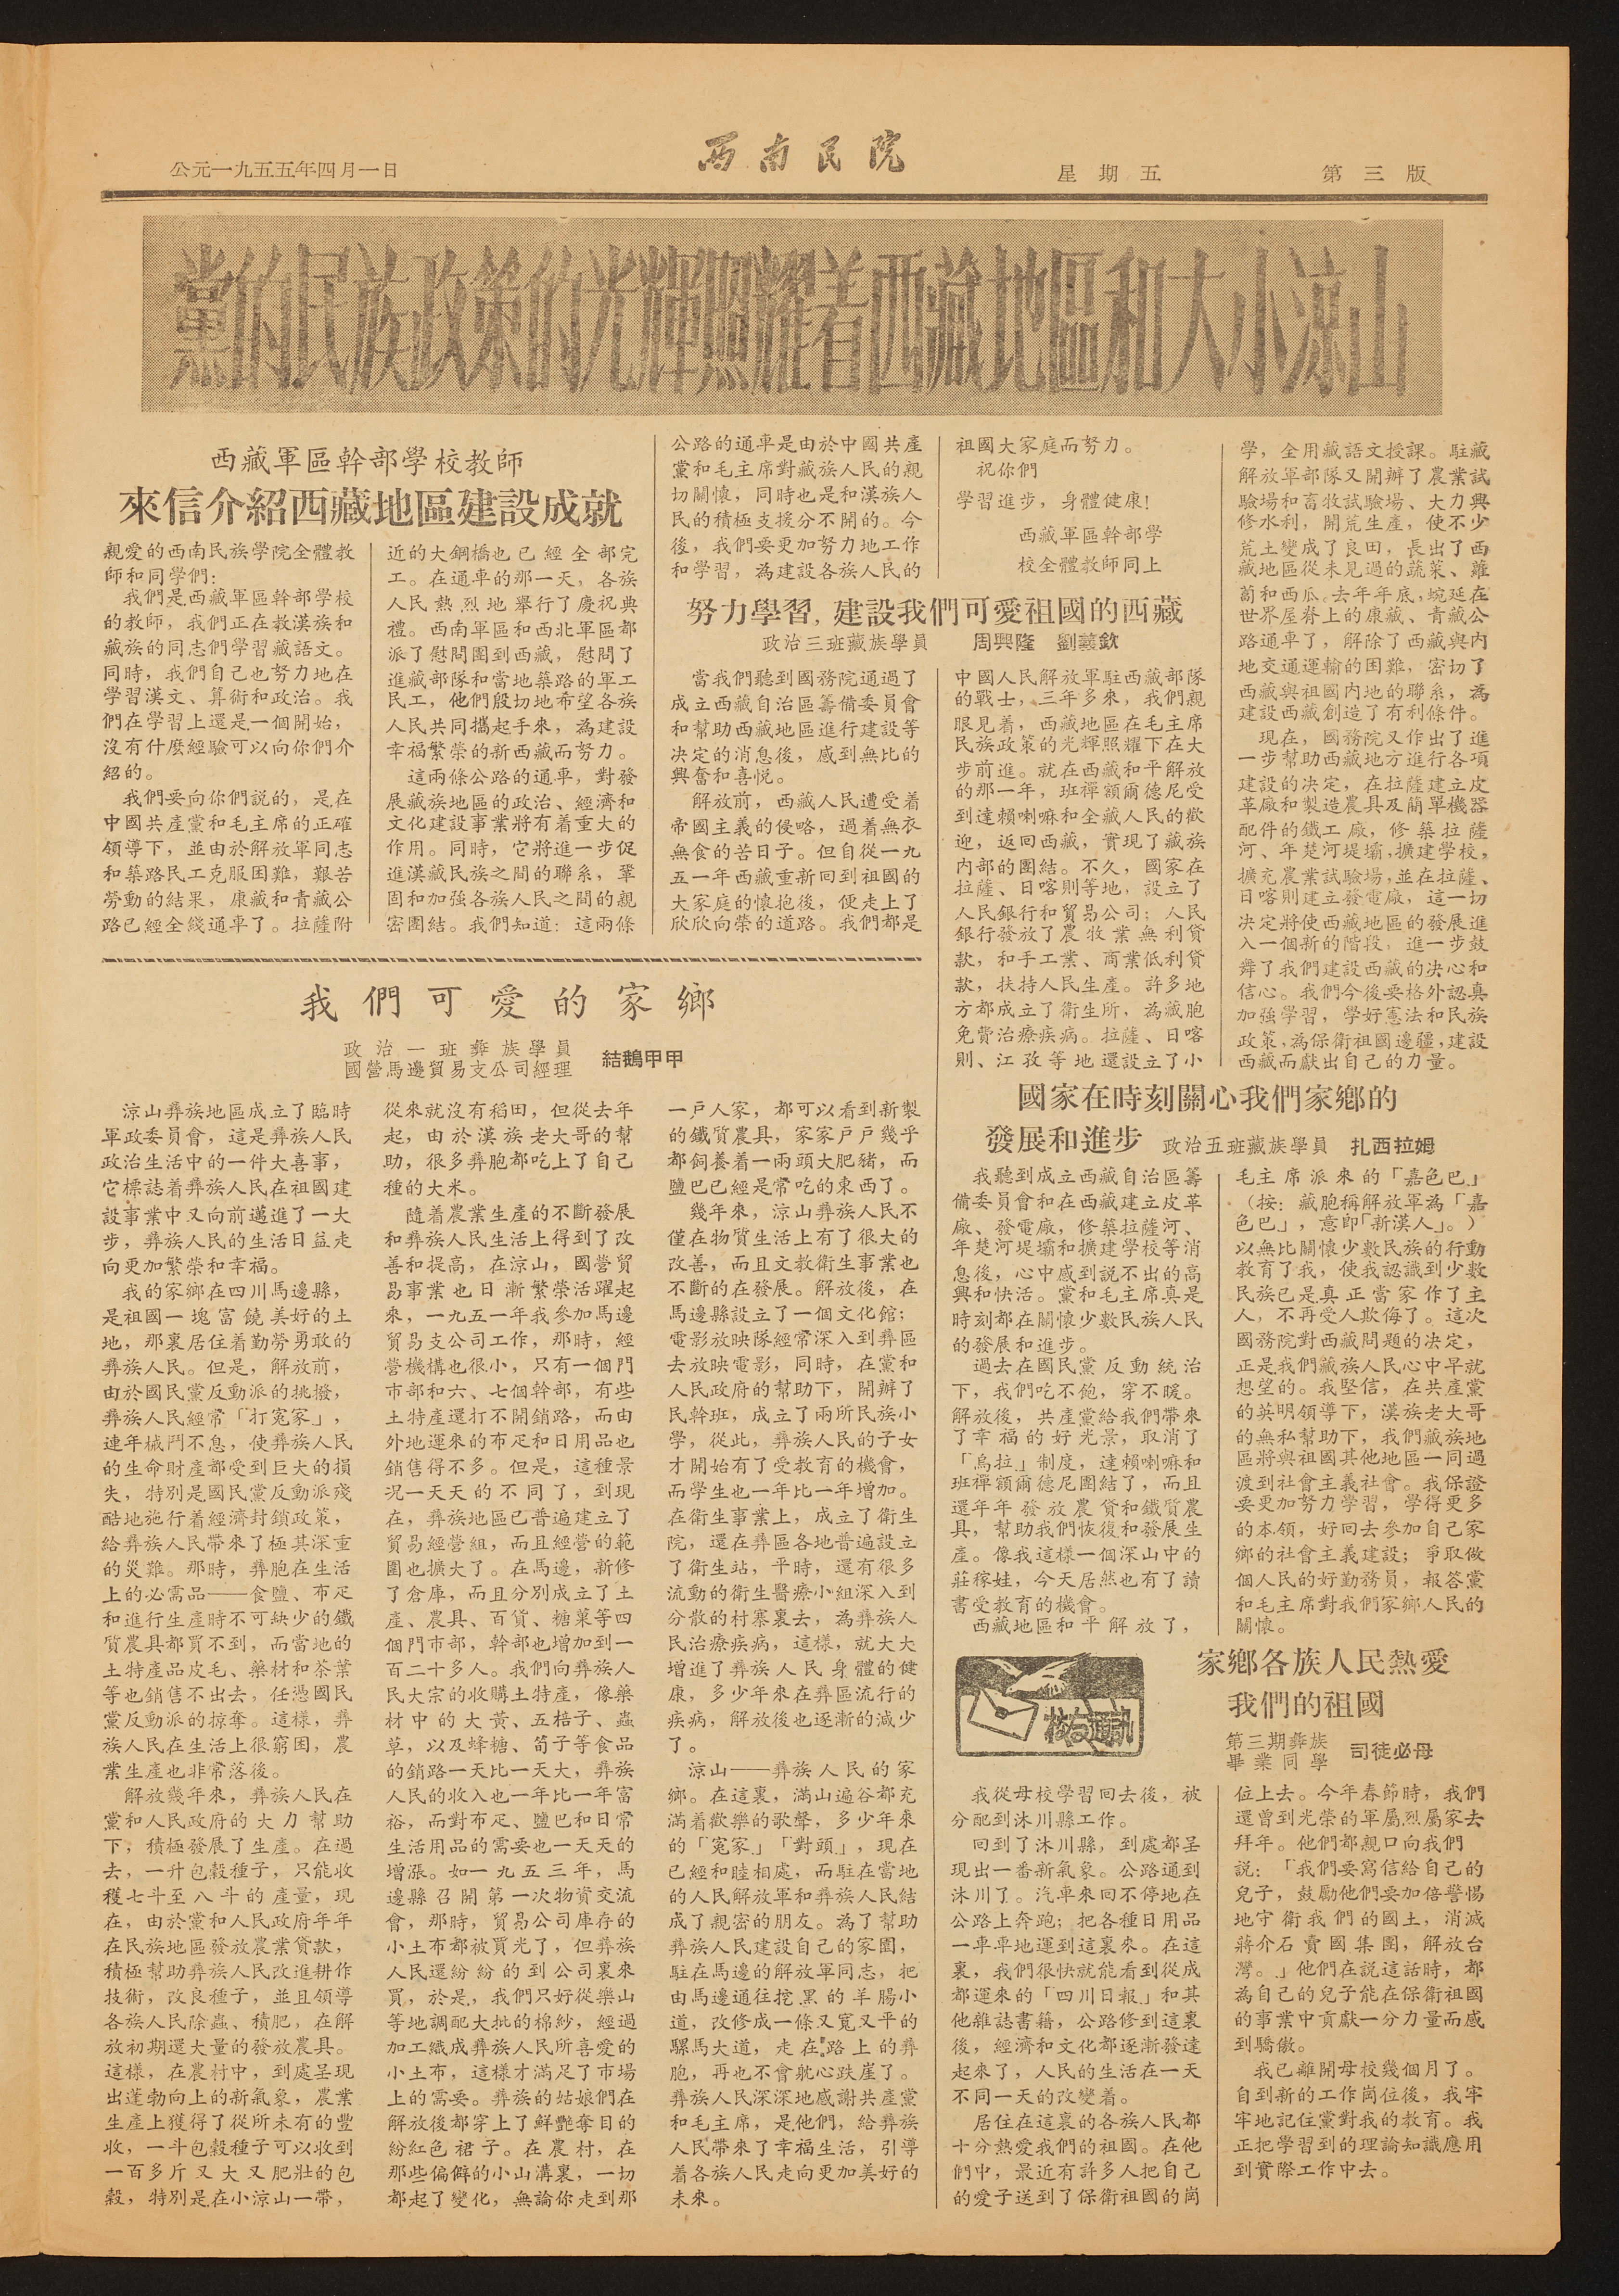公元一九五五年四月一日 西南民院 星期五 第三版
黨的民族政策的光輝照耀着西藏地區和大小涼山
西藏軍區幹部學校教師
來信介紹西藏地區建設成就
親愛的西南民族學院全體教
師和同學們：
我們是西藏軍區幹部學校
的教師，我們正在教漢族和
藏族的同志們學習藏語文。
同時，我們自己也努力地在
學習漢文、算術和政治。我
們在學習上還是一個開始，
沒有什麼經驗可以向你們介
紹的。
我們要向你們說的，是在
中國共產黨和毛主席的正確
領導下，並由於解放軍同志
和築路民工克服困難，艱苦
勞動的結果，康藏和青藏公
路已經全綫通車了。拉薩附
近的大鋼橋也已經全部完
工。在通車的那一天，各族
人民熱烈地舉行了慶祝典
禮。西南軍區和西北軍區都
派了慰問團到西藏，慰問了
進藏部隊和當地築路的軍工
民工，他們殷切地希望各族
人民共同攜起手來，為建設
幸福繁榮的新西藏而努力。
這兩條功德通車，對發
展藏族地區的政治、經濟和
文化建設事業將有着重大的
作用。同時，它將進一步促
進漢藏民族之間的聯系，鞏
固和加強各族人民之間的親
密團結。我們知道：這兩條
公路段通車是由於中國共產
黨和毛主席對藏族人民的親
切關懷，同時也是和漢族人
民的積極支援分不開的。今
後，我們要更加努力地工作
和學習，為建設各族人民的
祖國大家庭而努力。
祝你們
學習進步，身體健康！
西藏軍區幹部學
校全體教師同上
努力學習，建設我們可愛祖國的西藏
政治三班藏族學員 周興隆 劉義欽
當我們聽到國務院通過了
成立西藏自治區籌備委員會
和幫助西藏地區進行建設等
決定 消息後，感到無比的
興奮和喜悅。
解放前，西藏人民遭受着
帝國主義的侵略，過着無衣
無食的苦日子。但自從一九
五一年西藏重新囘到祖國的
大家庭的懷抱後，便走上了
欣欣向榮的道路。我們都是
中國人民解放軍駐西藏部隊
的戰士，三年多來，我們親
眼見着，西藏地區在毛主席
民族政策的光輝照耀下在大
步前進。就在西藏和平解放
的那一年，班禪額爾德尼受
到達賴喇嘛和全藏人民的歡
迎，返囘西藏，實現了藏族
內部的團結。不久，國家在
拉薩、日喀則等地，設立了
人民銀行和貿易公司；人民
銀行發放了農奴業無利貸
款，和手工業、商業低利貸
款，扶持人民生產。許多地
方都成立了衛生所，為藏胞
免費治療疾病。拉薩、日喀
則、江孜等地還設立了小
學，全用藏語文授課。駐藏
解放軍部隊又開辦了農業試
驗場和畜牧試驗場、大力興
修水利，開荒生產，使不少
荒土變成了良田，長出了西
藏地區從未見過的蔬菜、蘿
蔔和西瓜。去年年底，蜿延在
世界屋脊上的康藏、青藏公
路通車了，解除了西藏與內
地交通運輸的困難，密切了
西藏與祖國內地的聯系，為
建設西藏創造了有利條件。
現在，國務院又作出了進
一步幫助西藏地方進行各項
建設的決定，在拉薩建立皮
革廠和製造農具及簡單機器
配件的鐵工廠，修築拉薩
河、年楚河堤壩，擴建學校，
擴充農業試驗場，並在拉薩、
日喀則建立發電廠，這一切
決定將使西藏地區的發展進
入一個新的階段，進一步鼓
舞了我們建設西藏的決心和
信心。我們今後要格外認真
加強學習，學好憲法和民族
政策，為保衛祖國邊疆，建設
西藏而獻出自己的力量。
我 們 可 愛 的 家 鄉
政 治 一 班 彝 族 學 員
國營馬邊貿易支公司經理
結鵝甲甲
涼山彝族地區成立了臨時
軍政委員會，這是彝族人民
政治生活中的一件大喜事，
它標誌着彝族人民在祖國建
設事業上又向前邁進了一大
步，彝族人民的生活日益走
向更加繁榮和幸福。
我的家鄉在四川馬邊縣，
是祖國一塊富饒美好的土
地，那裏居住着勤勞勇敢的
彝族人民。但是，解放前，
由於國民黨反動派的挑撥，
彝族人民經常「打冤家」，
連年械鬥不息，使彝族人民
的生命財產都受到巨大的損
失，特別是國民黨反動派殘
酷地施行着經濟封鎖政策，
給彝族人民帶來了極其深重
的災難。那時，彝胞在生活
上的必需品——食鹽、布疋
和進行生產時不可缺少的鐵
質農具都買不到，而當地的
土特產品皮毛、藥材和茶葉
等也銷售不出去，任憑國民
黨反動派的掠奪。這樣，彝
族人民在生活上很窮困，農
業生產也非常落後。
解放幾年來，彝族人民在
黨和人民政府的大力幫助
下，積極發展了生產。在過
去，一升包穀種子，只能收
穫七斗至八斗的產量，現
在，由於黨和人民政府年年
在民族地區發放農業貸款，
積極幫助彝族人民改進耕作
技術，改良種子，並且領導
各族人民除蟲、積肥，在解
放初期還大量的發放農具。
這樣，在農村中，到處呈現
出蓬勃向上的新氣象，農業
生產上獲得了從所未有的豐
收，一斗包穀種子可以收到
一百多斤又大又肥壯的包
穀，特別是在小涼山一帶，
從來就沒有稻田，但從去年
起，由於漢族老大哥的幫
助，很多彝胞都吃上了自己
種的大米。
隨着農業生產的不斷發展
和彝族人民生活上得到了改
善和提高，在涼山，國營貿
易事業也日漸繁榮活躍起
來，一九五一年我參加馬邊
貿易支公司工作，那時，經
營機構也很小，只有一個門
市部和六、七個幹部，有些
土特產還打不開銷路，而由
外地運來的布疋和日用品也
銷售得不多。但是，這種景
況一天天的不同了，到現
在，彝族地區已普遍建立了
貿易經營組，而且經營的範
圍也擴大了。在馬邊，新修
了倉庫，而且分別成立了土
產、農具、百貨、糖菓等四
個門市部，幹部也增加到一
百二十多人。我們向彝族人
民大宗的收購土特產，像藥
材中的大黃、五棓子、蟲
草，以及蜂糖、筍子等食品
的銷路一天比一天大，彝族
人民的收入也一年比一年富
裕，而對布疋、鹽巴和日常
生活用品的需要也一天天的
增漲。如一九五三年，馬
邊縣召開第一次物資交流
會，那時，貿易公司庫存的
小土布都被買光了，但彝族
人民還紛紛的到公司裏來
買，於是，我們只好從樂山
等地調配大批的棉紗，經過
加工織成彝族人民所喜愛的
小土布，這樣才滿足了市場
上的需要。彝族的姑娘們在
解放後都穿上了鮮豔奪目的
粉紅色裙子。在農村，在
那些偏僻的小山溝裏，一切
都起了變化，無論你走到那
一戶人家，都可以看到新製
的鐵質農具，家家戶戶幾乎
都飼養着一兩頭大肥豬，而
鹽巴已經是常吃的東西了。
幾年來，涼山彝族人民不
僅在物質生活上有了很大的
改善，而且文教衛生事業也
不斷的在發展。解放後，在
馬邊縣設立了一個文化館；
電影放映隊經常深入到彝區
去放映電影，同時，在黨和
人民政府的幫助下，開辦了
民幹班，成立了兩所民族小
學，從此，彝族人民的子女
才開始有了受教育的機會，
而學生也一年比一年增加。
在衛生事業上，成立了衛生
院，還在彝區各地普遍設立
了衛生站，平時，還有很多
流動的衛生醫療小組深入到
分散的村寨裏去，為彝族人
民治療疾病，這樣，就大大
增進了彝族人民身體的健
康，多少年來在彝區流行的
疾病，解放後也逐漸的減少
了。
涼山——彝族人民的家
鄉。在這裏，滿山遍谷都充
滿着歡樂的歌聲，多少年來
的「冤家」「對頭」，現在
已經和睦相處，而駐在當地
的人民解放軍和彝族人民結
成了親密的朋友。為了幫助
彝族人民建設自己的家園，
駐在馬邊的解放軍同志，把
由馬邊通往挖黑的羊腸小
道，改修成一條又寬又平的
騾馬大道，走在路上的彝
胞，再也不會躭心跌崖了。
彝族人民深深地感謝共產黨
和毛主席，是他們，給彝族
人民帶來了幸福生活，引導
着各族人民走向更加美好的
未來。
國家在時刻關心我們家鄉的
發展和進步
政治五班藏族學員 扎西拉姆
我聽到成立西藏自治區籌
備委員會和在西藏建立皮革
廠、發電廠，修築拉薩河、
年楚河堤壩和擴建學校等消
息後，心中感到說不出的高
興和快活。黨和毛主席真是
時刻都在關懷少數民族人民
的發展和進步。
過去在國民黨反動統治
下，我們吃不飽，穿不暖。
解放後，共產黨給我們帶來
了幸福的好光景，取消了
「烏拉」制度，達賴喇嘛和
班禪額爾德尼團結了，而且
還年年發放農貸和鐵質農
具，幫助我們恢復和發展生
產。像我這樣一個深山中的
莊稼娃，今天居然也有了讀
書受教育的機會。
西藏地區和平解放了，
毛主席派來的「嘉色巴」
（按：藏胞稱解放軍為「嘉
色巴」，意卽「新漢人」。）
以無比關懷少數民族的行動
教育了我，使我認識到少數
民族已是真正當家作了主
人，不再受人欺侮了。這次
國務院對西藏問題的決定，
正是我們藏族人民心中早就
想望的。我堅信，在共產黨
的英明領導下，漢族老大哥
的無私幫助下，我們藏族地
區將與祖國其他地區一同過
渡到社會主義社會。我保證
要更加努力學習，學得更多
的本領，好囘去參加自己家
鄉的社會主義建設；爭取做
個人民的好勤務員，報答黨
和毛主席對我們家鄉人民的
關懷。
校友通訊
家鄉各族人民熱愛
我們的祖國
第三期彝族
畢 業 同 學
司徒必母
我從母校學習囘去後，被
分配到沐川縣工作。
囘到了沐川縣，到處都呈
現出一番新氣象。公路通到
沐川了。汽車來囘不停地在
公路上奔跑；把各種日用品
一車車地運到這裏來。在這
裏，我們很快就能看到從成
都運來的「四川日報」和其
他雜誌書籍，公路修到這裏
後，經濟和文化都逐漸發達
起來了，人民的生活在一天
不同一天的改變着。
居住在這裏的各族人民都
十分熱愛我們的祖國。在他
們中，最近有許多人把自己
的愛子送到了保衛祖國的崗
位上去。今年春節時，我們
還曾到光榮的軍屬烈屬家去
拜年。他們都親口向我們
說：「我們要寫信給自己的
兒子，鼓勵他們要加倍警惕
地守衛我們的國土，消滅
蔣介石賣國集團，解放台
灣。」他們在說這話時，都
為自己的兒子能在保衛祖國
的事業中貢獻一分力量而感
到驕傲。
我已離開母校幾個月了。
自到新的工作崗位後，我牢
牢地記住黨對我的教育。我
正把學習到的理論知識應用
到實際工作中去。
